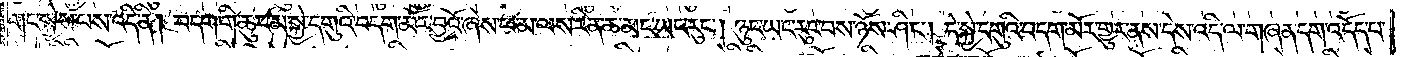གང་སྐྱེས་པས་འདི་ནི། བདག་གི་ཆུང་མ་སྐྱེ་དགུའི་བདག་མོར་བྱའོ་ཞེས་ཕ་མ་ལས་རིན་ཆེ་མང་ཡང་རུང༌། ཉུང་ཡང་རུང་བས་ཉོས་ཤིང༌། དེ་སྐྱེ་དགུའི་བདག་མོར་གྱུར་ནས་དེས་འདི་ལ་གཞན་དག་འདོད་པ་
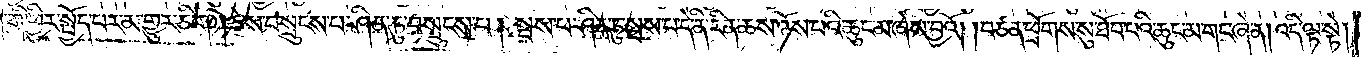དག་གི་ཕྱིར་སྤྱོད་པར་མ་གྱུར་ཅིག །ཅེས་པ་སྤུངས་པ་ཤིན་ཏུ་བསྲུངས་པ། སྦས་པ་ཤིན་ཏུ་སྦས་པ་དེ་ནི་རིན་ཆས་ཉོས་པའི་ཆུང་མ་ཞེས་བྱའོ། །བཙན་ཕྲོགས་སུ་ཐོབ་པའི་ཆུང་མ་གང་ཞེ་ན། འདི་ལྟ་སྟེ།
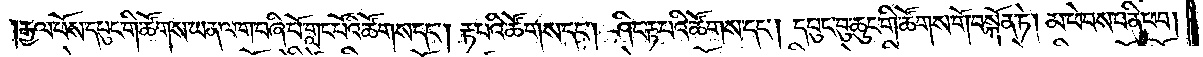རྒྱལ་པོས་དཔུང་གི་ཚོགས་ཡན་ལག་བཞི་པོ་གླང་པོའི་ཚོགས་དང༌། རྟ་བའི་ཚོགས་དང༌། ཤིང་རྟ་པའི་ཚོགས་དང༌། དཔུང་བུ་ཆུང་གི་ཚོགས་གོ་བསྐོན་ཏེ། མ་ཕེབས་པ་ནི་ཕབ་
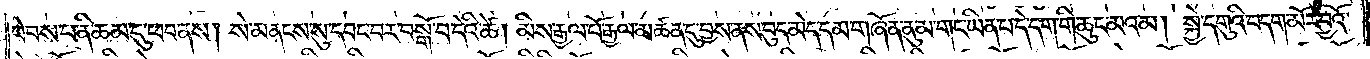ཕེབས་པ་ནི་ཆམ་དུ་ཕབ་ནས། སེ་མནངས་སུ་དབང་བར་བསྒོ་བ་དེའི་ཚེ། མིས་རྒྱལ་པོ་རྒྱལ་མཚན་དུ་བྱས་ནས་བུད་མེད་དམ་གཞོན་ནུ་མ་གང་ཡིན་པ་དེ་དག་གི་ཆུང་མའམ། སྐྱེ་དགུའི་བདག་མོར་བྱའོ་
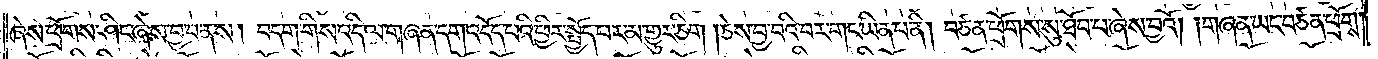ཞེས་ཕྲོགས་ཤིང་ཞེས་བྱ་བ་ནས། བདག་གིས་འདི་ལ་གཞན་དག་འདོད་པའི་ཕྱིར་སྤྱོད་པར་མ་གྱུར་ཅིག །ཅེས་བྱ་བའི་བར་གང་ཡིན་པ་ནི། བཙན་ཕྲོགས་སུ་ཐོབ་པ་ཞེས་བྱའོ། །གཞན་ཡང་བཙན་ཕྲོགས་
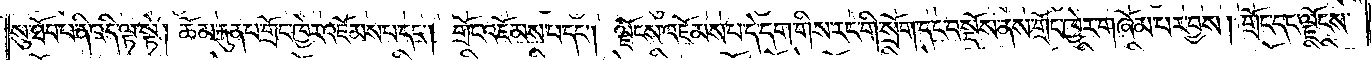སུ་ཐོབ་པ་ནི་འདི་ལྟ་སྟེ། ཆོམ་རྐུན་པ་གྲོང་ཁྱེར་འཇོམས་པ་དང༌། གྲོང་འཇོམས་པ་དང༌། ལྗོངས་འཇོམས་པ་དེ་དག་གིས་རང་གི་སྲོག་དང་བསྡོས་ནས་གྲོང་ཁྱེར་གཞོམ་པར་བྱས། གྲོང་དང་ལྗོངས་
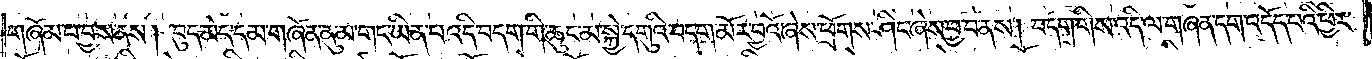གཞོམ་པ་བྱས་ནས། བུད་མེད་དམ་གཞོན་ནུ་མ་གང་ཡིན་པ་འདི་བདག་གི་ཆུང་མ་སྐྱེ་དགུའི་བདག་མོར་བྱའོ་ཞེས་ཕྲོགས་ཤིང་ཞེས་བྱ་བ་ནས། བདག་གིས་འདི་ལ་གཞན་དག་འདོད་པའི་ཕྱིར་
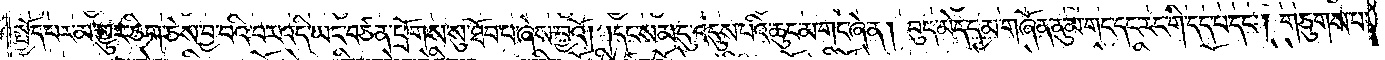སྤྱོད་པར་མ་གྱུར་ཅིག་ཅེས་བྱ་བའི་བར་འདི་ཡང་བཙན་ཕྲོགས་སུ་ཐོབ་པ་ཞེས་བྱའོ། །དང་སམ་དུ་འདུས་པའི་ཆུང་མ་གང་ཞེ་ན། བུད་མེད་དམ་གཞོན་ནུ་མ་གང་དང་རང་གི་དད་པ་དང༌། གཅུགས་པ་
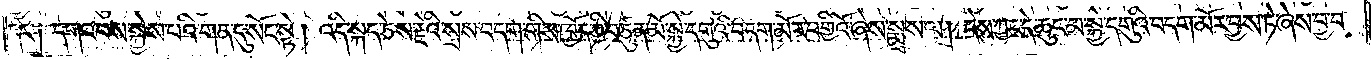དང༌། དགའ་བས་སྐྱེས་པའི་གན་དུ་སོང་སྟེ། འདི་སྐད་ཅེས་རྗེའི་སྲས་བདག་གིས་ཁྱོད་ཀྱི་བཙུན་མོ་སྐྱེ་དགུའི་བདག་མོར་བགྱིའོ་ཞེས་སྨྲས་ལ། དེས་ཀྱང་དེ་ཆུང་མ་སྐྱེ་དགུའི་བདག་མོར་བྱས་ཏེ་ཞེས་བྱ་བ་
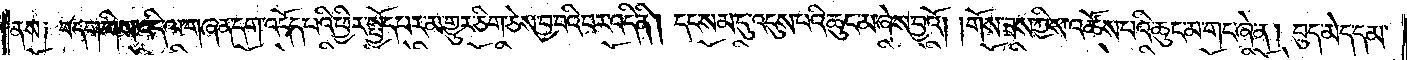ནས། བདག་གིས་འདི་ལ་གཞན་དག་འདོད་པའི་ཕྱིར་སྤྱོད་པར་མ་གྱུར་ཅིག་ཅེས་བྱ་བའི་བར་འདི་ནི། དང་སམ་དུ་འདུས་པའི་ཆུང་མ་ཞེས་བྱའོ། །གོས་ཟས་ཀྱིས་འཚོས་པའི་ཆུང་མ་གང་ཞེ་ན། བུད་མེད་དམ་
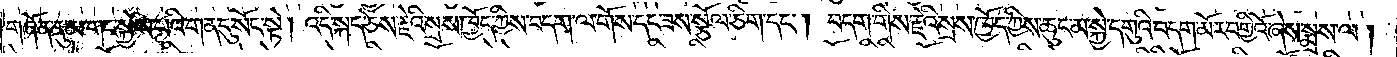གཞོན་ནུ་མ་གང་སྐྱེས་པའི་གན་དུ་སོང་སྟེ། འདི་སྐད་ཅེས་རྗེའི་སྲས་ཁྱོད་ཀྱིས་བདག་ལ་གོས་དང་ཟས་སྩོལ་ཅིག་དང༌། བདག་གིས་རྗེའི་སྲས་ཁྱོད་ཀྱིས་ཆུང་མ་སྐྱེ་དགུའི་བདག་མོར་བགྱིའོ་ཞེས་སྨྲས་ལ།
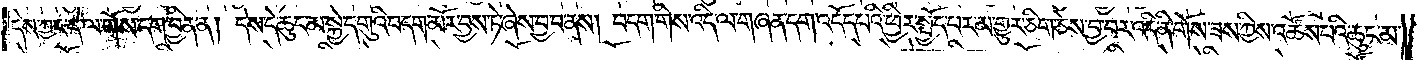དེས་ཀྱང་དེ་ལ་གོས་དག་བྱིན་ན། དེས་དེ་ཆུང་མ་སྐྱེ་དགུའི་བདག་མོར་བྱས་ཏེ་ཞེས་བྱ་བ་ནས། བདག་གིས་འདི་ལ་གཞན་དག་འདོད་པའི་ཕྱིར་སྤྱོད་པར་མ་གྱུར་ཅིག་ཅེས་བྱ་བར་འདི་ནི་གོས་ཟས་ཀྱིས་འཚོས་པའི་ཆུང་མ་
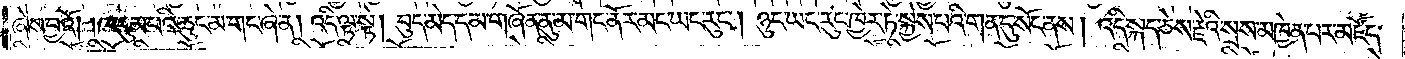ཞེས་བྱའོ། །ཁ་དུམ་པའི་ཆུང་མ་གང་ཞེ་ན། འདི་ལྟ་སྟེ། བུད་མེད་དམ་གཞོན་ནུ་མ་གང་ནོར་མང་ཡང་རུང༌། ཉུང་ཡང་རུང་ཁྱེར་ཏེ་སྐྱེས་པའི་གན་དུ་སོང་ནས། འདི་སྐད་ཅེས་རྗེའི་སྲས་མཁྱེན་པར་མཛོད་
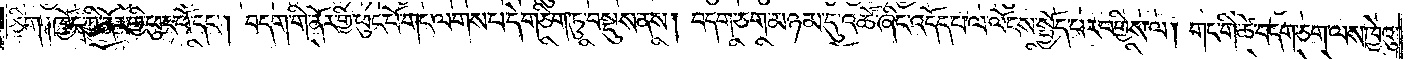ཅིག །ཁྱོད་ཀྱི་ནོར་གྱི་ཕུང་པོ་དང༌། བདག་གི་ནོར་གྱི་ཕུང་པོ་གང་ལགས་པ་དེ་གཅིག་ཏུ་བསྡུས་ནས། བདག་ཅག་མཉམ་དུ་འཚོ་ཞིང་འདོད་པ་ལ་ལོངས་སྤྱོད་པར་བགྱིས་ལ། གང་གི་ཚེ་བདག་ཅག་ལས་ཁྱེའུ་
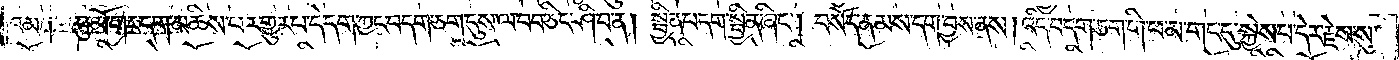འམ། བུ་མོ་གང་དག་མཆིས་པར་གྱུར་པ་དེ་དག་ཀྱང་བདག་ཅག་དུས་ལ་བབ་ཅིང་ཤི་བ་ན། སྦྱིན་པ་དག་སྦྱིན་ཞིང༌། བསོད་ནམས་དག་བྱས་ནས། འདི་བདག་ཅག་གི་ཕ་མ་གང་དུ་སྐྱེས་པ་དེར་རྗེས་སུ་
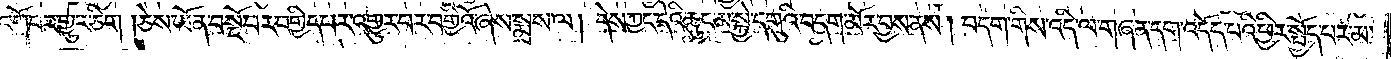འགྲོ་བར་གྱུར་ཅིག །ཅེས་ཡོན་བསྔོ་བར་བགྱིད་པར་འགྱུར་བར་བགྱིའོ་ཞེས་སྨྲས་ལ། དེས་ཀྱང་དེའི་ཆུང་མ་སྐྱེ་དགུའི་བདག་མོར་བྱས་ནས། བདག་གིས་འདི་ལ་གཞན་དག་འདོད་པའི་ཕྱིར་སྤྱོད་པར་མ་
